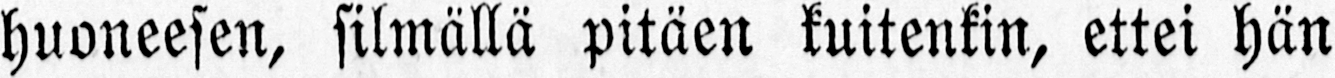huoneesen, silmällä pitäen kuitenkin, ettei hän
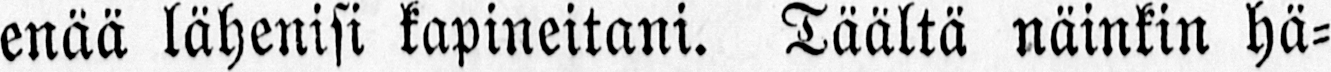enää lähenisi kapineitani. Täältä näinkin hä-
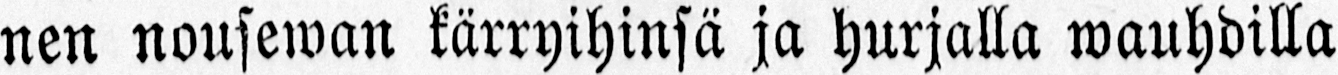nen nousewan kärryihinsä ja hurjalla wauhdilla
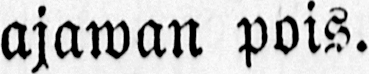ajawan pois.
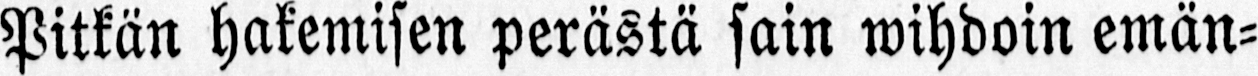Pitkän hakemisen perästä sain wihdoin emän-
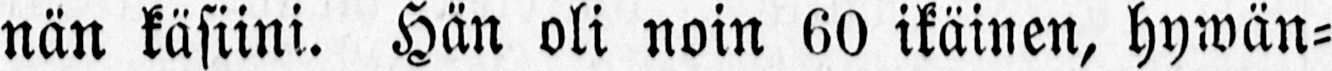nän käsiini. Hän oli noin 60 ikäinen, hywän-
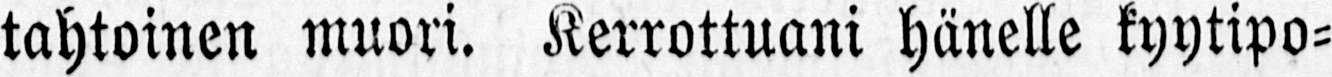tahtoinen muori. Kerrottuani hänelle kyytipo-
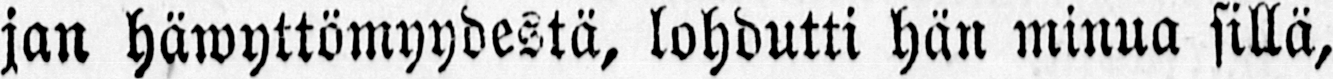jan häwyttömyydestä, lohdutti hän minua sillä,
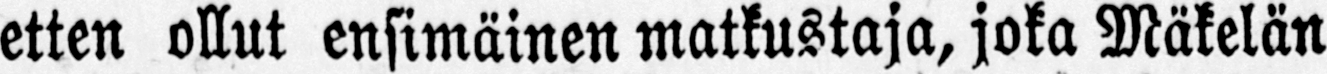etten ollut ensimäinen matkustaja, joka Mäkelän
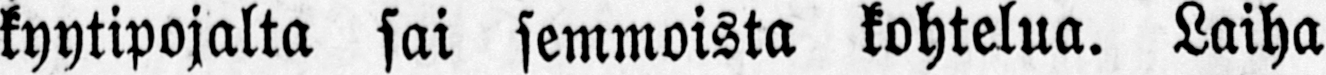kyytipojalta sai semmoista kohtelua. Laiha
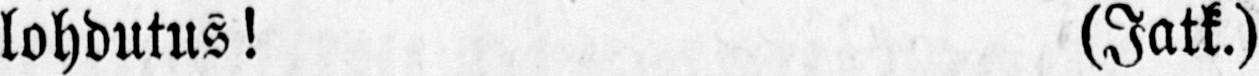lohdutus! (Jatk.)
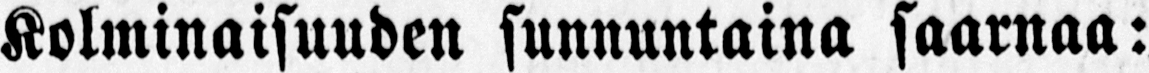Kolminaisuuden sunnuntaina saarnaa:
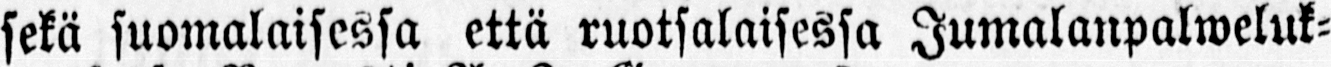sekä suomalaisessa että ruotsalaisessa Jumalanpalweluk-
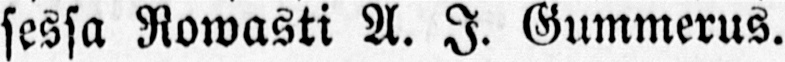sessa Rowasti A. I. Gummerus.
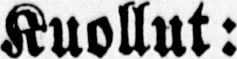Kuollut:
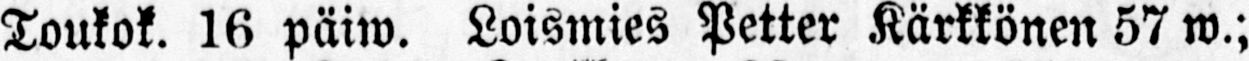Toukok. 16 päiw. Loismies Petter Kärkkönen 57 w.;
